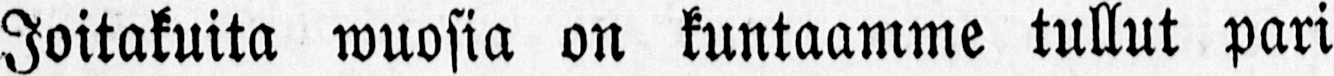Joitakuita wuosia on kuntaamme tullut pari
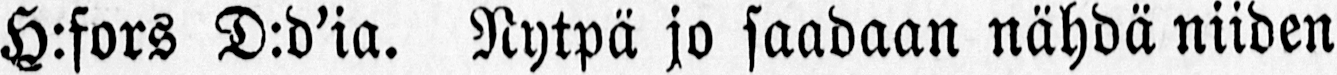H:fors D:d’ia. Nytpä jo saadaan nähdä niiden
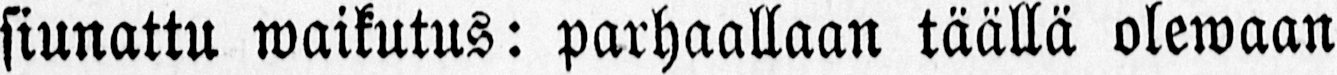siunattu waikutus: parhaallaan täällä olewaan
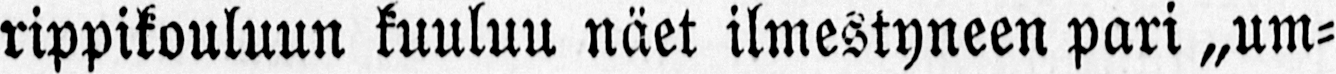rippikouluun kuuluu näet ilmestyneen pari „um-
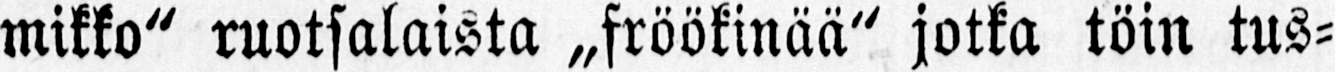mikko" ruotsalaista „fröökinää" jotka töin tus-
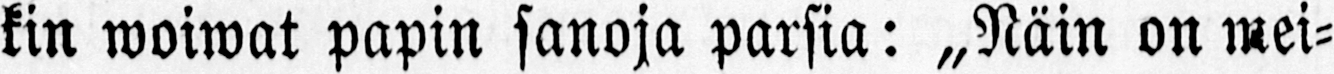kin woiwat papin sanoja parsia: „Näin on mei-
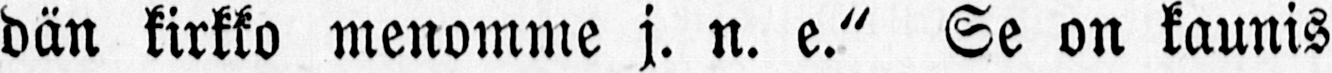dän kirkko menomme j. n. e." Se on kaunis
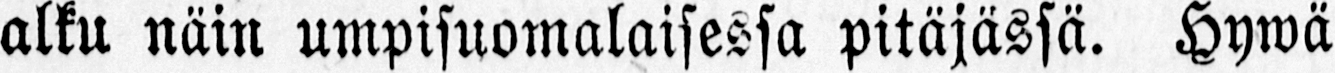alku näin umpisuomalaisessa pitäjässä. Hywä
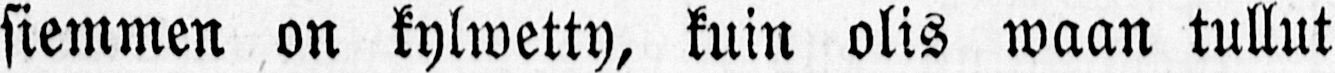siemmen on kylwetty, kuin olis waan tullut
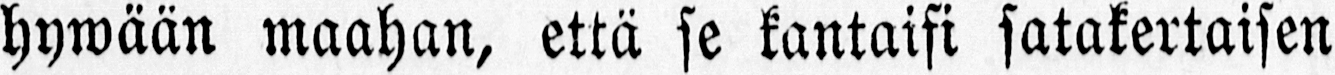hywään maahan, että se kantaisi satakertaisen
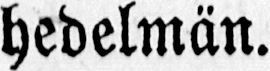hedelmän.
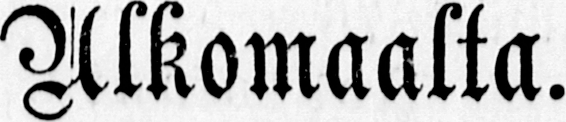Ulkomaalta.
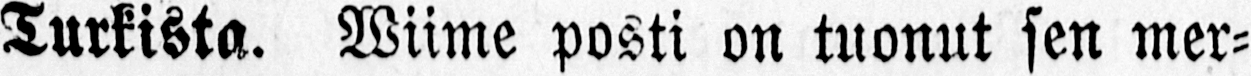Turkista. Wiime posti on tuonut sen mer-
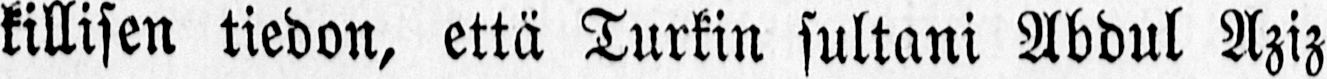killisen tiedon, että Turkin sultani Abdul Aziz
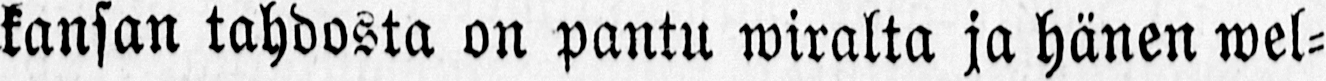kansan tahdosta on pantu wiralta ja hänen wel-
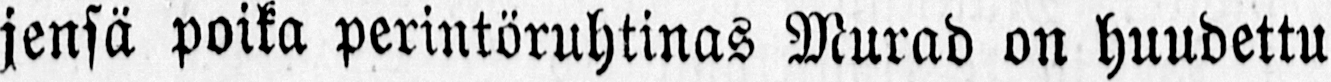jensä poika perintöruhtinas Murad on huudettu
